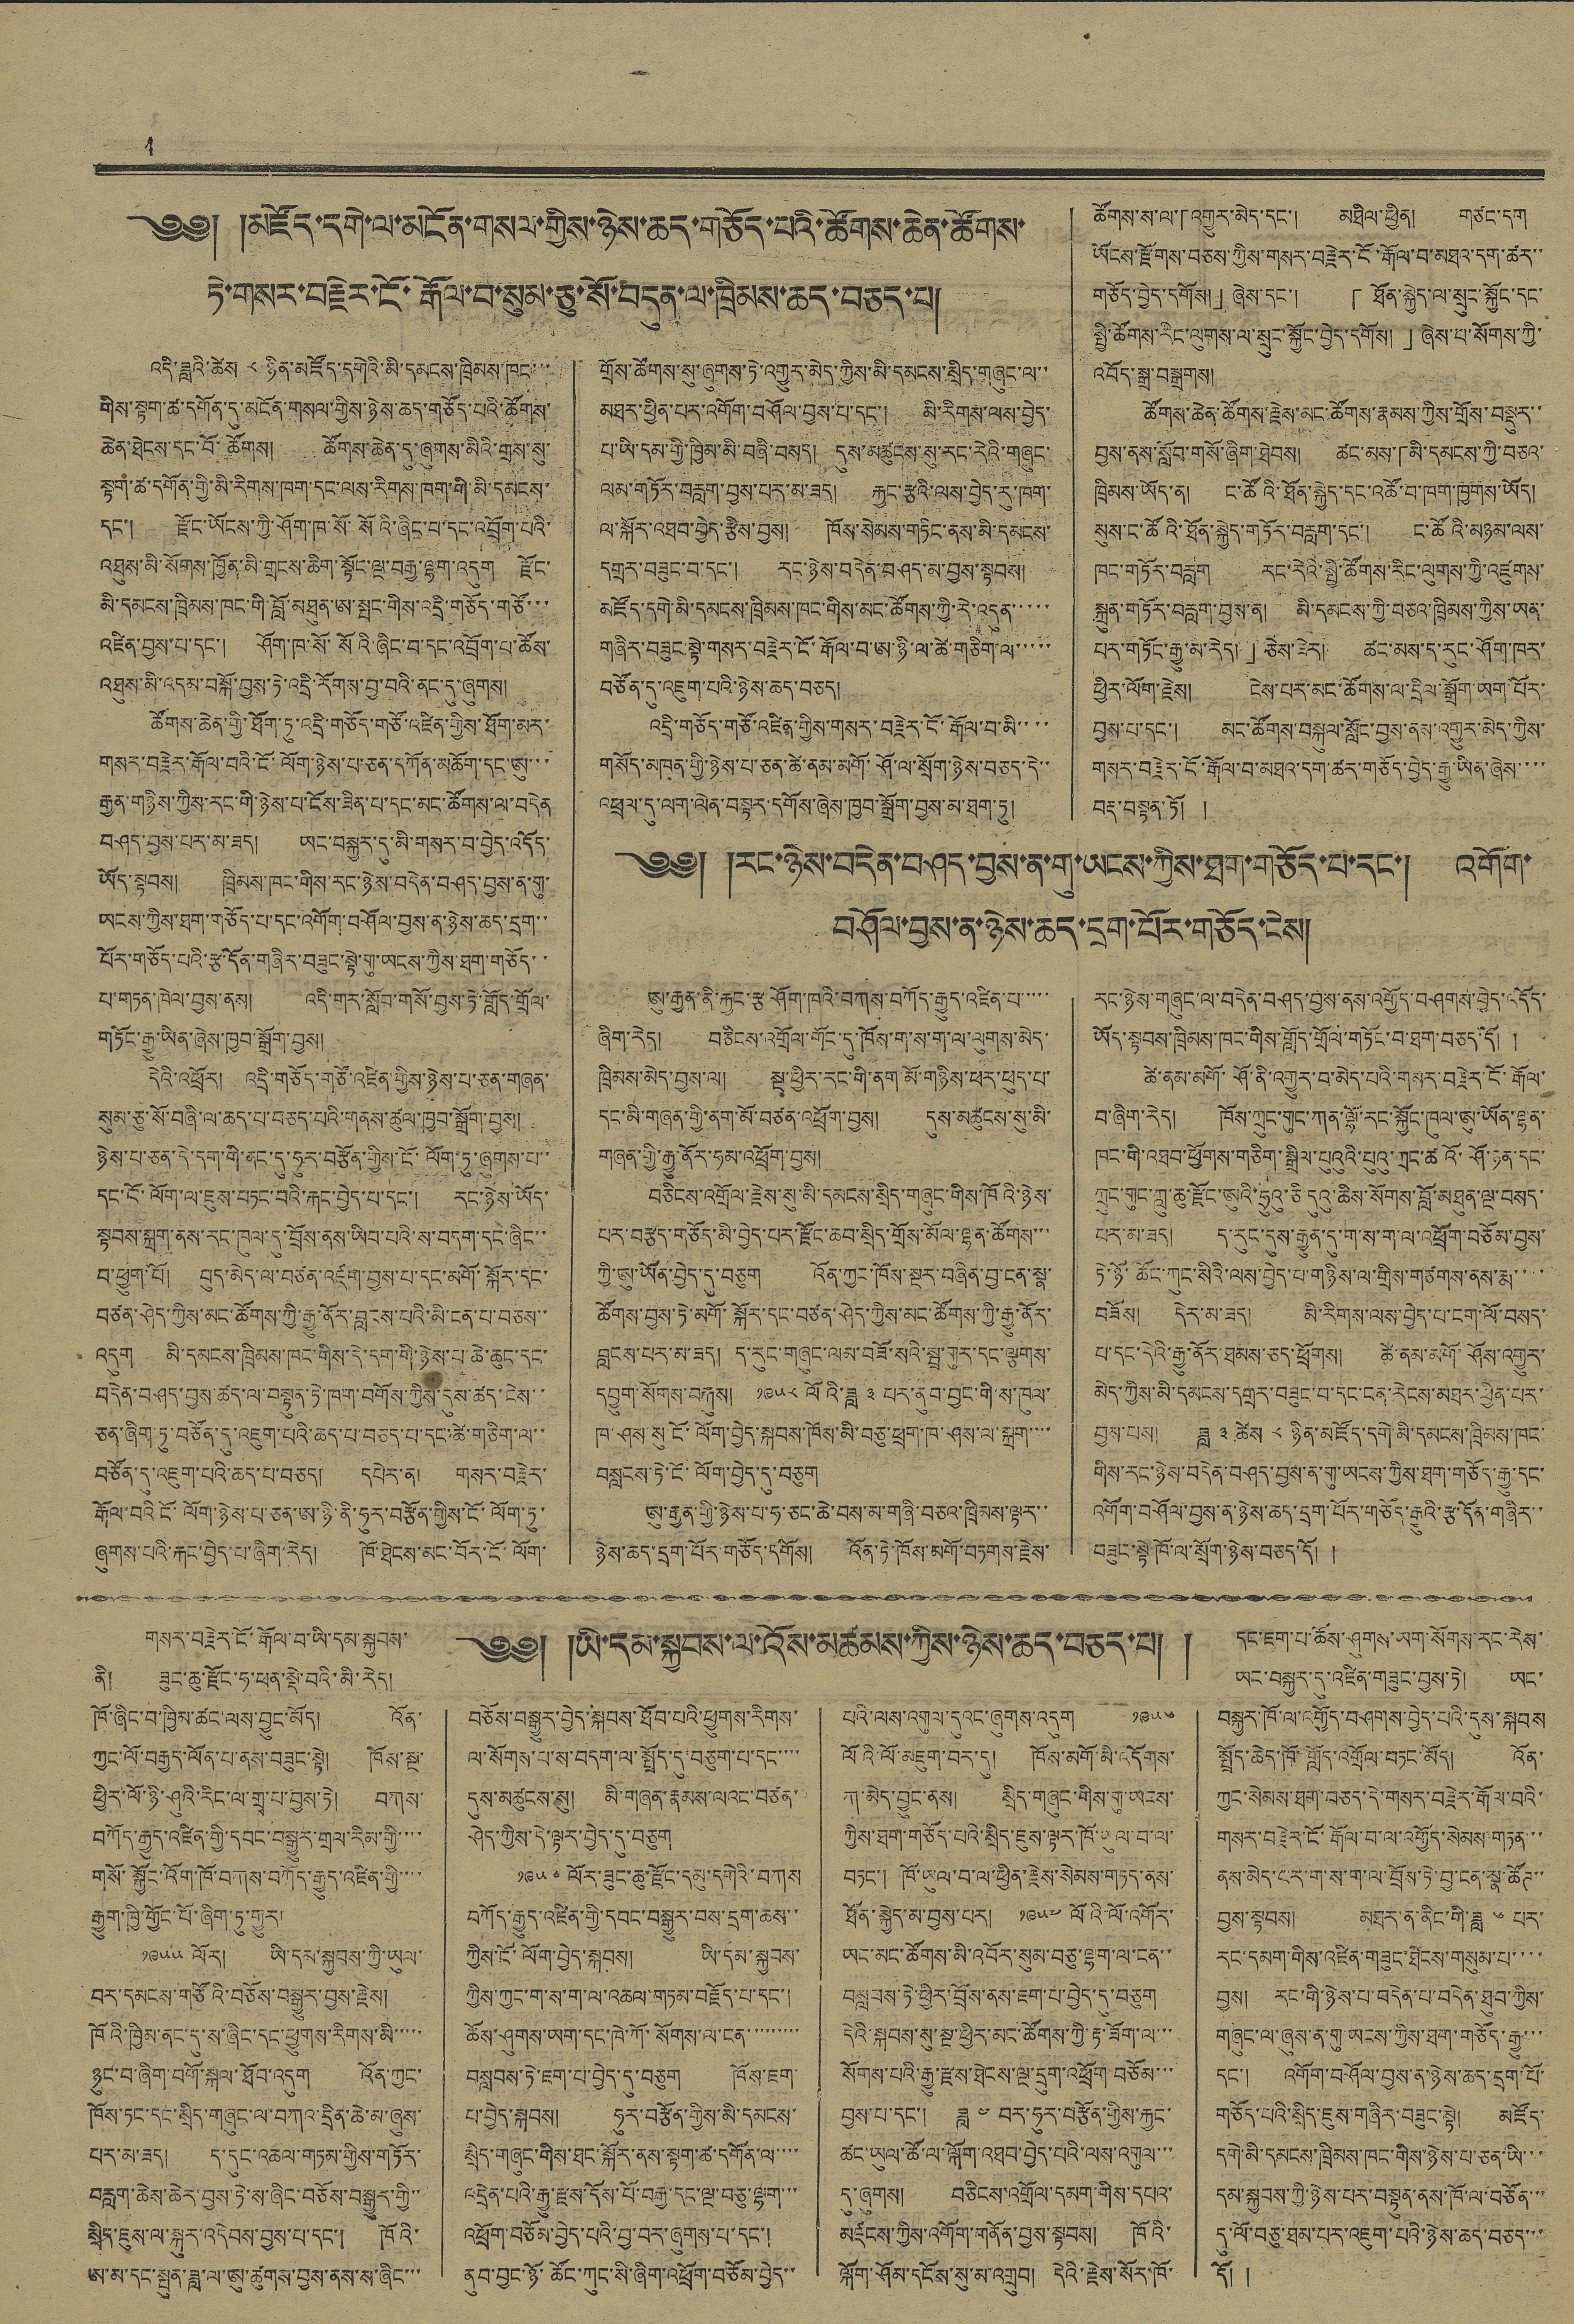4
༄༅། །མཛོད་དགེ་ལ་མངོན་གསལ་གྱིས་ཉེས་ཆད་གཅོད་པའི་ཚོགས་ཆེན་ཚོགས་
ཏེ་གསར་བརྗེར་ངོ་རྒོལ་བ་སུམ་ཅུ་སོ་བདུན་ལ་ཁྲིམས་ཆད་བཅད་པ།
འདི་ཟླའི་ཚེས ༨ ཉིན་མཛོད་དགེའི་མི་དམངས་ཁྲིམས ཁང་་་
གིས་སྟག་ཚ་དགོན་དུ་མངོན་གསལ་གྱིས་ཉེས་ཆད་གཅོད་པའི་ཚོགས་
ཆེན་ཐེངས་དང་བོ་ཚོགས། ཚོགས་ཆེན་དུ་ཞུགས་མིའི་གྲས་སུ་
སྟག་ཚ་དགོན་གྱི་མི་རིགས་ཁག་དང་ལས་རིགས་ཁག་གི་མི་དམངས་
དང་། རྫོང་ཡོངས་ཀྱི་ཤོག་ཁ་སོ་སོའི་ཞིང་པ་དང་འབྲོག་པའི་
འཐུས་མི་སོགས་ཁྱོན་མི་གྲངས་ཆིག་སྟོང་ལྔ་བརྒྱ་ལྷག་འདུག རྫོང་
མི་དམངས་ཁྲིམས་ཁང་གི་བློ་མཐུན་ཨ་སྤང་གིས་འདྲི་གཅོད་གཙོ་་་
འཛིན་བྱས་པ་དང་། ཤོག་ཁ་སོ་སོའི་ཞིང་བ་དང་འབྲོག་པ་ཚོས་
འཐུས་མི་འདམ་བསྐོ་བྱས་ཏེ་འདྲི་རོགས་བྱ་བའི་ནང་དུ་ཞུགས།
ཚོགས་ཆེན་གྱི་ཐོག་ཏུ་འདྲི་གཅོད་གཙོ་འཛིན་གྱིས་ཐོག་མར་
གསར་བརྗེར་རྒོལ་བའི་ངོ་ལོག་ཉེས་པ་ཅན་དཀོན་མཆོག་དང་ཨུ་་་
རྒྱན་གཉིས་ཀྱིས་རང་གི་ཉེས་པ་ངོས་ཟིན་པ་དང་མང་ཚོགས་ལ་བདེན
བཤད་བྱས་པར་མ་ཟད། ཡང་བསྐྱར་དུ་མི་གསར་བ་བྱེད་འདོད་
ཡོད་སྟབས། ཁྲིམས་ཁང་གིས་རང་ཉེས་བདེན་བཤད་བྱས་ན་གུ་
ཡངས་ཀྱིས་ཐག་གཅོད་པ་དང་འགོག་བཤོལ་བྱས་ན་ཉེས་ཆད་དྲག་་
པོར་གཅོད་པའི་རྩ་དོན་གཞིར་བཟུང་སྟེ་གུ་ཡངས་ཀྱིས་ཐག་གཅོད་་
པ་གཏན་ཁེལ་བྱས་ནས། འདི་གར་སློབ་གསོ་བྱས་ཏེ་གློད་གྲོལ་
གཏོང་རྒྱུ་ཡིན་ཞེས་ཁྱབ་སྒྲོག་བྱས།
དེའི་འཕྲོར། འདྲི་གཅོད་གཙོ་འཛིན་གྱིས་ཉེས་པ་ཅན་གཞན་
སུམ་ཅུ་སོ་བཞི་ལ་ཆད་པ་བཅད་པའི་གནས་ཚུལ་ཁྱབ་སྒྲོག་བྱས།
ཉེས་པ་ཅན་དེ་དག་གི་ནང་དུ་ཧུར་བརྩོན་གྱིས་ངོ་ལོག་ཏུ་ཞུགས་པ་་
དང་ངོ་ལོག་ལ་ཇུས་བཏང་བའི་རྐང་བྱེད་པ་དང་། རང་ཉེས་ཡོད་
སྟབས་སྐྲག་ནས་རང་ཁུལ་དུ་བྲོས་ནས་ཡིབ་པའི་ས་བདག་དང་ཞིང་་
བ་ཕྱུག་པོ། བུད་མེད་ལ་བཙན་འཛག་བྱས་པ་དང་མགོ་སྐོར་དང་
བཙན་ཤེད་ཀྱིས་མང་ཚོགས་ཀྱི་རྒྱུ་ནོར་བླངས་པའི་མི་ངན་པ་བཅས་་
འདུག མི་དམངས་ཁྲིམས་ཁང་གིས་དེ་དག་གི་ཉེས་པ་ཆེ་ཆུང་དང་
བདེན་བཤད་བྱས་ཚད་ལ་བསྟུན་ཏེ་ཁག་བགོས་ཀྱིས་དུས་ཚད་ངེས་་
ཅན་ཞིག་ཏུ་བཙོན་དུ་འཇུག་པའི་ཆད་པ་བཅད་པ་དང་ཚེ་གཅིག་ལ་་
བཙོན་དུ་འཇུག་པའི་ཆད་པ་བཅད། དཔེར་ན། གསར་བརྗེར་
རྒོལ་བའི ངོ་ལོག་ཉེས་པ་ཅན་ཨ་ཉི་ནི་ཧུར་བརྩོན་གྱིས་ངོ་ལོག་ཏུ་
ཞུགས་པའི་རྐང་བྱེད་པ་ཞིག་རེད། ཁོ་ཐེངས་མང་བོར་ངོ་ལོག་
གྲོས་ཚོགས་སུ་ཞུགས་ཏེ་འགྱུར་མེད་ཀྱིས་མི་དམངས་སྲིད་གཞུང་ལ་་
མཐར་ཕྱིན་པར་འགོག་བཤོལ་བྱས་པ་དང་། མི་རིགས་ལས་བྱེད་
པ་ཡི་དམ་གྱི་ཁྱིམ་མི་བཞི་བསད། དུས་མཚུངས་སུ་རང་རེའི་གཞུང་
ལམ་གཏོར་བརླག་བྱས་པར་མ་ཟད། རྐྱང་རྩའི་ལས་བྱེད་རུ་ཁག་
ལ་སྐོར་འཐབ་བྱེད་རྩིས་བྱས། ཁོས་སེམས་གཏིང་ནས་མི་དམངས་
དགྲར་བཟུང་བ་དང་། རང་ཉེས་བདེན་བཤད་མ་བྱས་སྟབས།
མཛོད་དགེ་མི་དམངས་ཁྲིམས་ཁང་གིས་མང་ཚོགས་ཀྱི་རེ་འདུན་་་་་
གཞིར་བཟུང་སྟེ་གསར་བརྗེར་ངོ་རྒོལ་བ་ཨ་ཉི་ལ་ཚེ་གཅིག་ལ་་་་་
བཙོན་དུ་འཇུག་པའི་ཉེས་ཆད་བཅད།
འདྲི་གཅོད་གཙོ་འཛིན་གྱིས་གསར་བརྗེར་ངོ་རྒོལ་བ་མི་་་་
གསོད་མཁན་གྱི་ཉེས་པ་ཅན་ཚེ་ནམ་མགོ་ཤོ་ལ་སྲོག་ཉེས་བཅད་དེ་་
འཕྲལ་དུ་ལག་ལེན་བསྟར་དགོས་ཞེས་ཁྱབ་སྒྲོག་བྱས་མ་ཐག་ཏུ།
ཚོགས་ས་ལ་「འགྱུར་མེད་དང་། མཐིལ་ཕྱིན། གཙང་དག
ཡོངས་རྫོགས་བཅས་ཀྱིས་གསར་བརྗེར་ངོ་རྒོལ་བ་མཐའ་དག་ཚར་་
གཅོད་བྱེད་དགོས།」ཞེས་དང་། 「ཐོན་སྐྱེད་ལ་སྲུང་སྐྱོང་དང་
སྤྱི་ཚོགས་རིང་ལུགས་ལ་སྲུང་སྐྱོང་བྱེད་དགོས།」ཞེས་པ་སོགས་ཀྱི་
འབོད་སྒྲ་བསྒྲགས།
ཚོགས་ཆེན་ཚོགས་རྗེས་མང་ཚོགས་རྣམས་ཀྱིས་གྲོས་བསྡུར་་
བྱས་ནས་སློབ་གསོ་ཞིག་ཐེབས། ཚང་མས་「མི་དམངས་ཀྱི་བཅའ་
ཁྲིམས་ཡོད་ན། ང་ཚོའི་ཐོན་སྐྱེད་དང་འཚོ་བ་ཁག་ཁྱགས་ཡོད།
སུས་ང་ཚོའི་ཐོན་སྐྱེད་གཏོར་བརླག་དང་། ང་ཚོའི་མཉམ་ལས་
ཁང་གཏོར་བརླག རང་རེའི་སྤྱི་ཚོགས་རིང་ལུགས་ཀྱི་འཛུགས་
སྐྲུན་གཏོར་བརླག་བྱས་ན། མི་དམངས་ཀྱི་བཅའ་ཁྲིམས་ཀྱིས་ཡན་
པར་གཏོང་རྒྱུ་མ་རེད།」ཅེས་ཟེར། ཚང་མས་ད་རུང་ཤོག་ཁར་
ཕྱིར་ལོག་རྗེས། ངེས་པར་མང་ཚོགས་ལ་དྲིལ་སྒྲོག་ཡག་པོར་
བྱས་པ་དང་། མང་ཚོགས་བསྐུལ་སློང་བྱས་ནས་འགྱུར་མེད་ཀྱིས་
གསར་བརྗེར་ངོ་རྒོལ་བ་མཐའ་དག་ཚར་གཅོད་བྱེད་རྒྱུ་ཡིན་ཞེས་་་་
བརྡ་བསྟན་ཏོ། །
༄༅། །རང་ཉེས་བདེན་བཤད་བྱས་ན་གུ་ཡངས་ཀྱིས་ཐག་གཅོད་པ་དང་། འགོག་
བཤོལ་བྱས་ན་ཉེས་ཆད་དྲག་པོར་གཅོད་ངེས།
ཨུ་རྒྱན་ནི་རྐྱང་རྩ་ཤོག་ཁའི་བཀས་བཀོད་རྒྱུད་འཛིན་པ་་་་་
ཞིག་རེད། བཅིངས་འགྲོལ་གོང་དུ་ཁོས་ག་ས་ག་ལ་ལུགས་མེད་
ཁྲིམས་མེད་བྱས་ལ། སྔ་ཕྱིར་རང་གི་ནག་མོ་གཉིས་ཕར་ཕུད་པ་
དང་མི་གཞན་གྱི་ནག་མོ་བཙན་འཕྲོག་བྱས། དུས་མཚུངས་སུ་མི་
གཞན་གྱི་རྒྱུ་ནོར་ཧམ་འཕྲོག་བྱས།
བཅིངས་འགྲོལ་རྗེས་སུ་མི་དམངས་སྲིད་གཞུང་གིས་ཁོའི་ཉེས་
པར་བརྩད་གཅོད་མི་བྱེད་པར་རྫོང་ཆབ་སྲིད་གྲོས་མོལ་ལྷན་ཚོགས་་་
ཀྱི་ཨུ་ཡོན་བྱེད་དུ་བཅུག འོན་ཀྱང་ཁོས་སྔར་བཞིན་བྱ་ངན་སྣ་
ཚོགས་བྱས་ཏེ་མགོ་སྐོར་དང་བཙན་ཤེད་ཀྱིས་མང་ཚོགས་ཀྱི་རྒྱུ་ནོར་
བླངས་པར་མ་ཟད། ད་རུང་གཞུང་ལམ་བཟོ་སའི་སྦྲ་གུར་དང་ལྕགས་
དབྱུག་སོགས་བརྐུས། ༡༩༥༨ ལོའི་ཟླ ༣ པར་ནུབ་བྱང་གི་ས་ཁུལ་
ཁ་ཤས་སུ་ངོ་ལོག་བྱེད་སྐབས་ཁོས་མི་བཅུ་ཕྲག་ཁ་ཤས་ལ་སྐྲག་་་་
བསླངས་ཏེ་ངོ་ལོག་བྱེད་དུ་བཅུག
ཨུ་རྒྱན་གྱི་ཉེས་པ་ཧ་ཅང་ཆེ་བས་མ་གཞི་བཅའ་ཁྲིམས་ལྟར་་
ཉེས་ཆད་དྲག་པོར་གཅོད་དགོས། འོན་ཏེ་ཁོས་མགོ་བཏགས་རྗེས་
རང་ཉེས་གཞུང་ལ་བདེན་བཤད་བྱས་ནས་འགྱོད་བཤགས་བྱེད་འདོད་
ཡོད་སྟབས་ཁྲིམས་ཁང་གིས་གློད་གྲོལ་གཏོང་བ་ཐག་བཅད་དོ། །
ཚེ་ནམ་མགོ་ཤོ་ནི་འགྱུར་བ་མེད་པའི་གསར་བརྗེར་ངོ་རྒོལ་
བ་ཞིག་རེད། ཁོས་ཀྲུང་གུང་ཀན་ལྷོ་རང་སྐྱོང་ཀུལ་ཨུ་ཡོན་ལྷན་
ཁང་གི་འཐབ་ཕྱོགས་གཅིག་སྒྲིལ་པུའུའི་པུའུ་ཀྲང་ཚའོ་ཤོ་ཉན་དང་
ཀྲུང་གུང་ཀླུ་ཆུ་རྫོང་ཨུའི་ཧྲུའུ་ཅི དུའུ་ཆིས་སོགས་བློ་མཐུན་ལྔ་བསད་
པར་མ་ཟད། ད་རུང་དུས་རྒྱུན་དུ་ག་ས་ག་ལ་འཕྲོག་བཅོམ་བྱས་
ཏེ་ཉོ་ཆོང་ཀུང་སིའི་ལས་བྱེད་པ་གཉིས་ལ་གྲིས་གཙགས་ནས་རྨ་་་་
བཟོས། དེར་མ་ཟད། མི་རིགས་ལས་བྱེད་པ་ངག་ལོ་བསད་
པ་དང་དེའི་རྒྱུ་ནོར་ཐམས་ཅད་ཕྲོགས། ཚེ་ནམ་མགོ་ཤོས་འགྱུར་
མེད་ཀྱིས་མི་དམངས་དགྲར་བཟུང་བ་དང་ངན་རེངས་མཐར་ཕྱིན་པར་
བྱས་པས། ཟླ ༣ ཚེས ༨ ཉིན་མཛོད་དགེ་མི་དམངས་ཁྲིམས་ཁང་
གིས་རང་ཉེས་བདེན་བཤད་བྱས་ན་གུ་ཡངས་ཀྱིས་ཐག་གཅོད་རྒྱུ་དང་
འགོག་བཤོལ་བྱས་ན་ཉེས་ཆད་དྲག་པོར་གཅོད་རྒྱུའི་རྩ་དོན་གཞིར་་
བཟུང་སྟེ་ཁོ་ལ་སྲོག་ཉེས་བཅད་དོ། །
༄༅། །ཡི་དམ་སྐྱབས་ལ་འོས་མཚམས་ཀྱིས་ཉེས་ཆད་བཅད་པ། །
གསར་བརྗེར་ངོ་རྒོལ་བ་ཡི་དམ་སྐྱབས་
ནི། ཟུང་ཆུ་རྫོང་ཧ་ཕན་སྡེ་བའི་མི་རེད།
ཁོ་ཞིང་བ་ཁྱིམ་ཚང་ལས་བྱུང་མོད། འོན་
ཀྱང་ལོ་བརྒྱད་ལོན་པ་ནས་བཟུང་སྟེ། ཁོས་སྔ་
ཕྱིར་ལོ་ཉི་ཤུའི་རིང་ལ་གྲྭ་པ་བྱས་ཏེ། བཀས་
བཀོད་རྒྱུད་འཛིན་གྱི་དབང་བསྒྱུར་གྲལ་རིམ་གྱི་་་་
གསོ་སྐྱོང་འོག་ཁོ་བཀས་བཀོད་རྒྱུད་འཛིན་གྱི་་་་
རྒྱུག་ཁྱི་གྱོང་པོ་ཞིག་ཏུ་གྱུར།
༡༩༥༥ ལོར། ཡི་དམ་སྐྱབས་ཀྱི་ཡུལ་
བར་དམངས་གཙོའི་བཅོས་བསྒྱུར་བྱས་རྗེས།
ཁོའི་ཁྱིམ་ནང་དུ་ས་ཞིང་དང་ཕྱུགས་རིགས་མི་་་་་
ཉུང་བ་ཞིག་བགོ་སྐལ་ཐོབ་འདུག འོན་ཀྱང་
ཁོས་ཏང་དང་སྲིད་གཞུང་ལ་བཀའ་དྲིན་ཆེ་མ་ཞུས་
པར་མ་ཟད། ད་དུང་འཆལ་གཏམ་གྱིས་གཏོར་
བརླག་ཆེས་ཆེར་བྱས་ཏེ་ས་ཞིང་བཅོས་བསྒྱུར་གྱི་་
སྲིད་ཇུས་ལ་སྐུར་འདེབས་བྱས་པ་དང་། ཁོའི་
ཨ་མ་དང་སྤུན་ཟླ་ལ་ཨུ་ཚུགས་བྱས་ནས་ས་ཞིང་་་
བཅོས་བསྒྱུར་བྱེད་སྐབས་ཐོབ་པའི་ཕྱུགས་རིགས་
ལ་སོགས་པ་ས་བདག་ལ་སྤྲོད་དུ་བཅུག་པ་དང་་་་
དུས་མཚུངས་སུ། མི་གཞན་རྣམས་ལའང་བཙན་
ཤེད་ཀྱིས་དེ་ལྟར་བྱེད་དུ་བཅུག
༡༩༥༦ ལོར་ཟུང་ཆུ་རྫོང་དམུ་དགེའི་བཀས
བཀོད་རྒྱུད་འཛིན་གྱི་དབང་བསྒྱུར་བས་དྲག་ཆས་་
ཀྱིས་ངོ་ལོག་བྱེད་སྐབས། ཡི་དམ་སྐྱབས་
ཀྱིས་ཀྱང་ག་ས་ག་ལ་འཆལ་གཏམ་བརྗོད་པ་དང་།
ཆོས་ཤུགས་ཡག་དང་ཁེ་ཀོ་སོགས་ལ་ངན་་་་་་་་་
བསླབས་ཏེ་ཇག་པ་བྱེད་དུ་བཅུག ཁོས་ཇག་
པ་བྱེད་སྐབས། ཧུར་བརྩོན་གྱིས་མི་དམངས་
སྲིད་གཞུང་གིས་ཐང་སྐོར་ནས་སྟག་ཚ་དགོན་ལ་་་་
འདྲེན་པའི་རྒྱུ་རྫས་དོས་པོ་བརྒྱ་དང་ལྔ་བཅུ་ལྷག་་་
འཕྲོག་བཅོམ་བྱེད་པའི་བྱ་བར་ཞུགས་པ་དང་།
ནུབ་བྱང་ཉོ་ཚོང་ཀུང་སི་ཞིག་འཕྲོག་བཅོམ་བྱེད་་
པའི་ལས་འགུལ་དུའང་ཞུགས་འདུག ༡༩༥༦
ལོའི་ལོ་མཇུག་བར་དུ། ཁོས་མགོ་མི་འདོགས་
ཀ་མེད་བྱུང་ནས། སྲིད་གཞུང་གིས་གུ་ཡངས་
ཀྱིས་ཐག་གཅོད་པའི་སྲིད་ཇུས་ལྟར་ཁོ་ཡུལ་བ་ལ་
བཏང་། ཁོ་ཡུལ་བ་ལ་ཕྱིན་རྗེས་སེམས་གཏད་ནས་
ཐོན་སྐྱེད་མ་བྱས་པར། ༡༩༥༧ ལོའི་ལོ་འགོར་
ཡང་མང་ཚོགས་མི་འབོར་སུམ་བཅུ་ལྷག་ལ་ངན་་
བསླབས་ཏེ་ཕྱིར་བྲོས་ནས་ཇག་པ་བྱེད་དུ་བཅུག
དེའི་སྐབས་སུ་སྔ་ཕྱིར་མང་ཚོགས་ཀྱི་རྟ་ཟོག་ལ་་་
སོགས་པའི་རྒྱུ་རྫས་ཐེངས་ལྔ་དྲུག་འཕྲོག་བཅོམ་་་
བྱས་པ་དང་། ཟླ ༤ བར་ཧུར་བརྩོན་གྱིས་རྐྱང་
ཚང་ཡུལ་ཚོ་ལ་ལྐོག་འཐབ་བྱེད་པའི་ལས་འགུལ་་་
དུ་ཞུགས། བཅིངས་འགྲོལ་དམག་གིས་དཔའ་
མཛངས་ཀྱིས་འགོག་གནོན་བྱས་སྟབས། ཁོའི་
ལྐོག་ཤོམ་དངོས་སུ་མ་འགྲུབ། དེའི་རྗེས་སོར་ཁོ་
དང་ཇག་པ་ཆོས་ཤུགས་ཡག་སོགས་རང་རེས་
ཡང་བསྐྱར་དུ་འཛིན་གཟུང་བྱས་ཏེ། ཡང་
བསྐྱར་ཁོ་ལ་འགྱོད་བཤགས་བྱེད་པའི་དུས་སྐབས་
སྤྲོད་ཆེད་ཁོ་གློད་འགྲོལ་བཏང་མོད། འོན་
ཀྱང་སེམས་ཐག་བཅད་དེ་གསར་བརྗེར་རྒོལ་བའི་
གསར་བརྗེར་ངོ་རྒོལ་བ་ལ་འགྱོད་སེམས་གཏན་་་
ནས་མེད་པར་ག་ས་ག་ལ་བྲོས་ཏེ་བྱ་ངན་སྣ་ཚོཊ་་
བྱས་སྟབས། མཐར་ན་ནིང་གི་ཟླ ༦ པར་
རང་དམག་གིས་འཛིན་གཟུང་ཐེངས་གསུམ་པ་་་་
བྱས། རང་གི་ཉེས་པ་བདེན་པ་བདེན་ཐུབ་ཀྱིས་
གཞུང་ལ་ཞུས་ན་གུ་ཡངས་ཀྱིས་ཐག་གཅོད་རྒྱུ་་་
དང་། འགོག་བཤོལ་བྱས་ན་ཉེས་ཆད་དྲག་པོ་
གཅོད་པའི་སྲིད་ཇུས་གཞིར་བཟུང་སྟེ། མཛོད་
དགེ་མི་དམངས་ཁྲིམས་ཁང་གིས་ཉེས་པ་ཅན་ཡི་་་
དམ་སྐྱབས་ཀྱི་ཉེས་པར་བསྟུན་ནས་ཁོ་ལ་བཙོན་་་
དུ་ལོ་བཅུ་ཐམ་པར་འཇུག་པའི་ཉེས་ཆད་བཅད་་་
དོ། །
